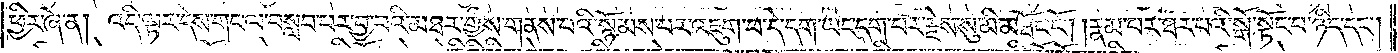ཕྱིར་ཞེ་ན། འདི་ལྟར་དེས་གང་ལ་བསླབ་པར་བྱ་བའི་མཐར་གྱིས་གནས་པའི་སྙོམས་པར་འཇུག་པ་དེ་དག་ཡང་དག་པར་རྗེས་སུ་མི་མཐོང་ངོ༌། །རྣམ་པར་ཐར་པའི་སྒོ་སྟོང་པ་ཉིད་དང༌།
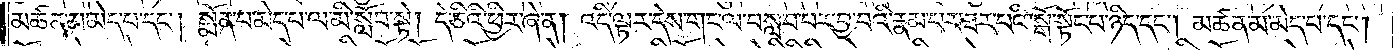མཚན་མ་མེད་པ་དང༌། སྨོན་པ་མེད་པ་ལ་མི་སློབ་སྟེ། དེ་ཅིའི་ཕྱིར་ཞེ་ན། འདི་ལྟར་དེས་གང་ལ་བསླབ་པར་བྱ་བའི་རྣམ་པར་ཐར་པའི་སྒོ་སྟོང་པ་ཉིད་དང༌། མཚན་མ་མེད་པ་དང༌།
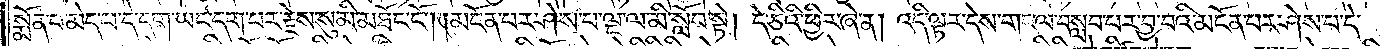སྨོན་པ་མེད་པ་དེ་དག་ཡང་དག་པར་རྗེས་སུ་མི་མཐོང་ངོ༌། །མངོན་པར་ཤེས་པ་ལྔ་ལ་མི་སློབ་སྟེ། དེ་ཅིའི་ཕྱིར་ཞེ་ན། འདི་ལྟར་དེས་གང་ལ་བསླབ་པར་བྱ་བའི་མངོན་པར་ཤེས་པ་དེ་
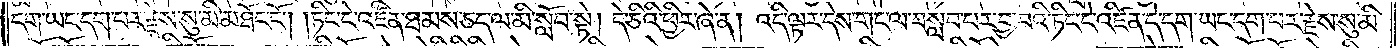དག་ཡང་དག་པར་རྗེས་སུ་མི་མཐོང་ངོ༌། །ཏིང་ངེ་འཛིན་ཐམས་ཅད་ལ་མི་སློབ་སྟེ། དེ་ཅིའི་ཕྱིར་ཞེ་ན། འདི་ལྟར་དེས་གང་ལ་བསླབ་པར་བྱ་བའི་ཏིང་ངེ་འཛིན་དེ་དག་ཡང་དག་པར་རྗེས་སུ་མི་
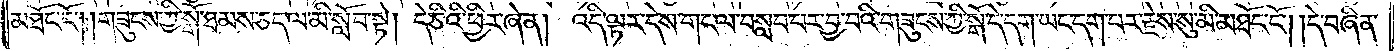མཐོང་ངོ༌། །གཟུངས་ཀྱི་སྒོ་ཐམས་ཅད་ལ་མི་སློབ་སྟེ། དེ་ཅིའི་ཕྱིར་ཞེ་ན། འདི་ལྟར་དེས་གང་ལ་བསླབ་པར་བྱ་བའི་གཟུངས་ཀྱི་སྒོ་དེ་དག་ཡང་དག་པར་རྗེས་སུ་མི་མཐོང་ངོ༌། །དེ་བཞིན་
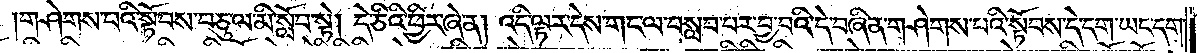གཤེགས་པའི་སྟོབས་བཅུ་ལ་མི་སློབ་སྟེ། དེ་ཅིའི་ཕྱིར་ཞེ་ན། འདི་ལྟར་དེས་གང་ལ་བསླབ་པར་བྱ་བའི་དེ་བཞིན་གཤེགས་པའི་སྟོབས་དེ་དག་ཡང་དག་
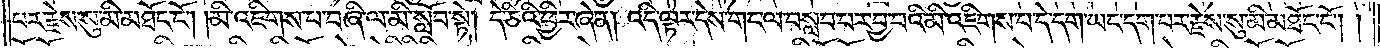པར་རྗེས་སུ་མི་མཐོང་ངོ༌། །མི་འཇིགས་པ་བཞི་ལ་མི་སློབ་སྟེ། དེ་ཅིའི་ཕྱིར་ཞེ་ན། འདི་ལྟར་དེས་གང་ལ་བསླབ་པར་བྱ་བའི་མི་འཇིགས་པ་དེ་དག་ཡང་དག་པར་རྗེས་སུ་མི་མཐོང་ངོ༌། །
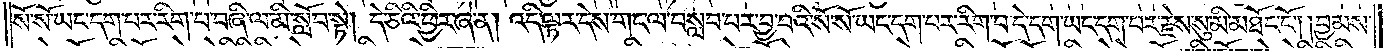སོ་སོ་ཡང་དག་པར་རིག་པ་བཞི་ལ་མི་སློབ་སྟེ། དེ་ཅིའི་ཕྱིར་ཞེ་ན། འདི་ལྟར་དེས་གང་ལ་བསླབ་པར་བྱ་བའི་སོ་སོ་ཡང་དག་པར་རིག་པ་དེ་དག་ཡང་དག་པར་རྗེས་སུ་མི་མཐོང་ངོ༌། །བྱམས་
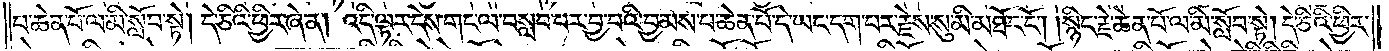པ་ཆེན་པོ་ལ་མི་སློབ་སྟེ། དེ་ཅིའི་ཕྱིར་ཞེ་ན། འདི་ལྟར་དེས་གང་ལ་བསླབ་པར་བྱ་བའི་བྱམས་པ་ཆེན་པོ་དེ་ཡང་དག་པར་རྗེས་སུ་མི་མཐོང་ངོ༌། །སྙིང་རྗེ་ཆེན་པོ་ལ་མི་སློབ་སྟེ། དེ་ཅིའི་ཕྱིར་
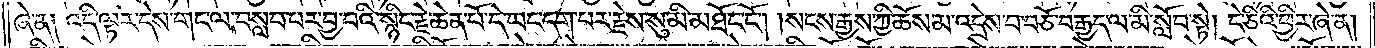ཞེ་ན། འདི་ལྟར་དེས་གང་ལ་བསླབ་པར་བྱ་བའི་སྙིང་རྗེ་ཆེན་པོ་དེ་ཡང་དག་པར་རྗེས་སུ་མི་མཐོང་ངོ༌། །སངས་རྒྱས་ཀྱི་ཆོས་མ་འདྲེས་པ་བཅོ་བརྒྱད་ལ་མི་སློབ་སྟེ། དེ་ཅིའི་ཕྱིར་ཞེ་ན།
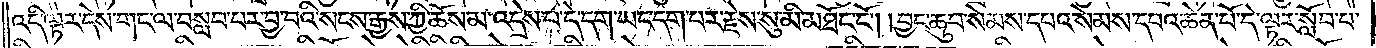འདི་ལྟར་དེས་གང་ལ་བསླབ་པར་བྱ་བའི་སངས་རྒྱས་ཀྱི་ཆོས་མ་འདྲེས་པ་དེ་དག་ཡང་དག་པར་རྗེས་སུ་མི་མཐོང་ངོ༌། །བྱང་ཆུབ་སེམས་དཔའ་སེམས་དཔའ་ཆེན་པོ་དེ་ལྟར་སློབ་པ་
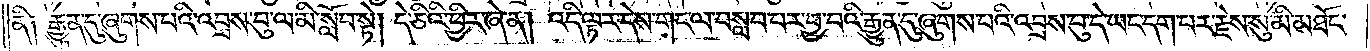ནི༑ རྒྱུན་དུ་ཞུགས་པའི་འབྲས་བུ་ལ་མི་སློབ་སྟེ། དེ་ཅིའི་ཕྱིར་ཞེ་ན། འདི་ལྟར་དེས་གང་ལ་བསླབ་པར་བྱ་བའི་རྒྱུན་དུ་ཞུགས་པའི་འབྲས་བུ་དེ་ཡང་དག་པར་རྗེས་སུ་མི་མཐོང་
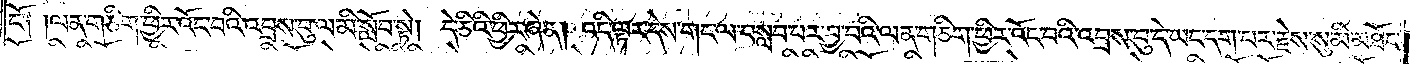ངོ༑ །ལན་ཅིག་ཕྱིར་འོང་བའི་འབྲས་བུ་ལ་མི་སློབ་སྟེ། དེ་ཅིའི་ཕྱིར་ཞེ་ན། འདི་ལྟར་དེས་གང་ལ་བསླབ་པར་བྱ་བའི་ལན་ཅིག་ཕྱིར་འོང་བའི་འབྲས་བུ་དེ་ཡང་དག་པར་རྗེས་སུ་མི་མཐོང་
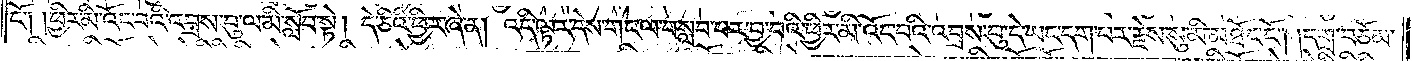ངོ༌། །ཕྱིར་མི་འོང་བའི་འབྲས་བུ་ལ་མི་སློབ་སྟེ། དེ་ཅིའི་ཕྱིར་ཞེ་ན། འདི་ལྟར་དེས་གང་ལ་བསླབ་པར་བྱ་བའི་ཕྱིར་མི་འོང་བའི་འབྲས་བུ་དེ་ཡང་དག་པར་རྗེས་སུ་མི་མཐོང་ངོ༌། །དགྲ་བཅོམ་
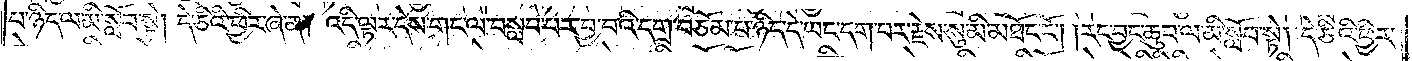པ་ཉིད་ལ་མི་སློབ་སྟེ། དེ་ཅིའི་ཕྱིར་ཞེ་ན། འདི་ལྟར་དེས་གང་ལ་བསླབ་པར་བྱ་བའི་དགྲ་བཅོམ་པ་ཉིད་དེ་ཡང་དག་པར་རྗེས་སུ་མི་མཐོང་ངོ༌། །རང་བྱང་ཆུབ་ལ་མི་སློབ་སྟེ། དེ་ཅིའི་ཕྱིར་
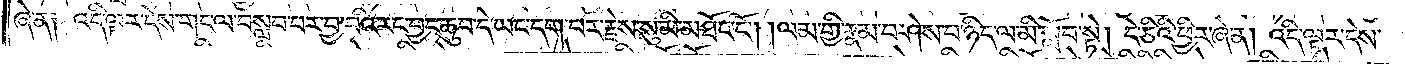ཞེ་ན། འདི་ལྟར་དེས་གང་ལ་བསླབ་པར་བྱ་བའི་རང་བྱང་ཆུབ་དེ་ཡང་དག་པར་རྗེས་སུ་མི་མཐོང་ངོ༌། །ལམ་གྱི་རྣམ་པ་ཤེས་པ་ཉིད་ལ་མི་སློབ་སྟེ། དེ་ཅིའི་ཕྱིར་ཞེ་ན། འདི་ལྟར་དེས་
